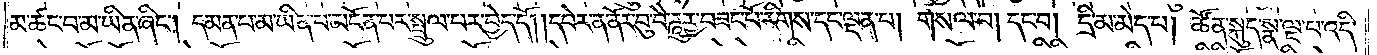མ་ཚང་བ་མ་ཡིན་ཞིང༌། དམན་པ་མ་ཡིན་པ་མངོན་པར་སྤྲུལ་པར་བྱེད་དོ། །དཔེར་ན་ནོར་བུ་བཻ་ཌཱུཪྻ་བཟང་པོ་རིགས་དང་ལྡན་པ། གསལ་བ། དང་བ། དྲི་མ་མེད་པ། ཚོན་སྐུད་སྣ་ལྔ་པ་འདི་
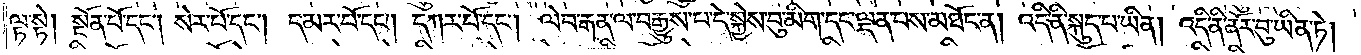ལྟ་སྟེ། སྔོན་པོ་དང༌། སེར་པོ་དང༌། དམར་པོ་དང༌། དཀར་པོ་དང༌། ལེབ་རྒན་ལ་བརྒྱུས་པ་དེ་སྐྱེས་བུ་མིག་དང་ལྡན་པས་མཐོང་ན། འདི་ནི་སྐུད་པ་ཡིན། འདི་ནི་ནོར་བུ་ཡིན་ཏེ།
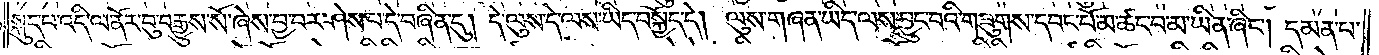སྐུད་པ་འདི་ལ་ནོར་བུ་བརྒྱུས་སོ་ཞེས་བྱ་བར་ཤེས་པ་དེ་བཞིན་དུ། དེ་ལུས་དེ་ལས་ཡིད་བསྐྱོད་དེ། ལུས་གཞན་ཡིད་ལས་བྱུང་བའི་གཟུགས་དབང་པོ་མ་ཚང་བ་མ་ཡིན་ཞིང༌། དམན་པ་
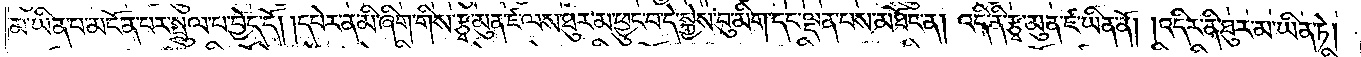མ་ཡིན་པ་མངོན་པར་སྤྲུལ་པ་བྱེད་དོ། །དཔེར་ན་མི་ཞིག་གིས་རྩྭ་མུན་ཛ་ལས་ཐུར་མ་ཕྱུང་བ་དེ་སྐྱེས་བུ་མིག་དང་ལྡན་པས་མཐོང་ན། འདི་ནི་རྩྭ་མུན་ཛ་ཡིན་ནོ། །འདི་ནི་ཐུར་མ་ཡིན་ཏེ།
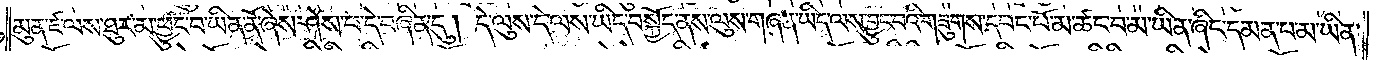མུན་ཛ་ལས་ཐུར་མ་ཕྱུང་བ་ཡིན་ནོ་ཞེས་ཤེས་པ་དེ་བཞིན་དུ། དེ་ལུས་དེ་ལས་ཡིད་བསྐྱོད་ནས་ལུས་གཞན་ཡིད་ལས་བྱུང་བའི་གཟུགས་དབང་པོ་མ་ཚང་བ་མ་ཡིན་ཞིང་དམན་པ་མ་ཡིན་
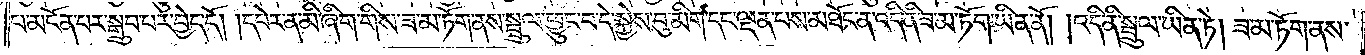པ་མངོན་པར་སྒྲུབ་པར་བྱེད་དོ། །དཔེར་ན་མི་ཞིག་གིས་ཟ་མ་ཏོག་ནས་སྦྲུལ་ཕྱུང་བ་དེ་སྐྱེས་བུ་མིག་དང་ལྡན་པས་མཐོང་ན་འདི་ནི་ཟ་མ་ཏོག་ཡིན་ནོ། །འདི་ནི་སྦྲུལ་ཡིན་ཏེ། ཟ་མ་ཏོག་ནས་
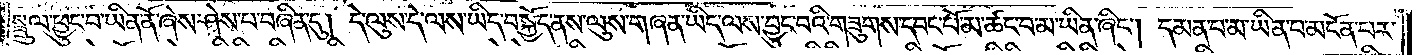སྤྲུལ་ཕྱུང་བ་ཡིན་ནོ་ཞེས་ཤེས་པ་བཞིན་དུ། དེ་ལུས་དེ་ལས་ཡིད་བསྐྱོད་ནས་ལུས་གཞན་ཡིད་ལས་བྱུང་བའི་གཟུགས་དབང་པོ་མ་ཚང་བ་མ་ཡིན་ཞིང༌། དམན་པ་མ་ཡིན་པ་མངོན་པར་
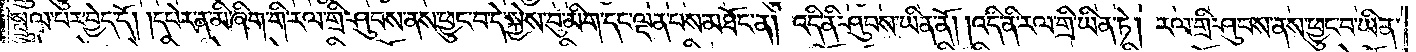སྤྲུལ་པར་བྱེད་དོ། །དཔེར་ན་མི་ཞིག་གི་རལ་གྲི་ཤུབས་ནས་ཕྱུང་བ་དེ་སྐྱེས་བུ་མིག་དང་ལྡན་པས་མཐོང་ན། འདི་ནི་ཤུབས་ཡིན་ནོ། །འདི་ནི་རལ་གྲི་ཡིན་ཏེ། རལ་གྲི་ཤུབས་ནས་ཕྱུང་བ་ཡིན་
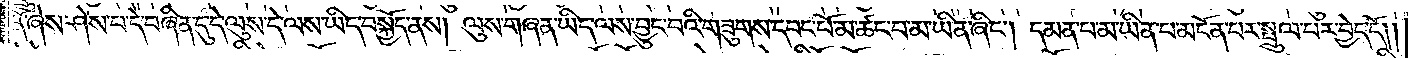ནོ་ཞེས་ཤེས་པ་དེ་བཞིན་དུ་དེ་ལུས་དེ་ལས་ཡིད་བསྐྱོད་ནས། ལུས་གཞན་ཡིད་ལས་བྱུང་བའི་གཟུགས་དབང་པོ་མ་ཚང་བ་མ་ཡིན་ཞིང༌། དམན་པ་མ་ཡིན་པ་མངོན་པར་སྤྲུལ་པར་བྱེད་དོ། །
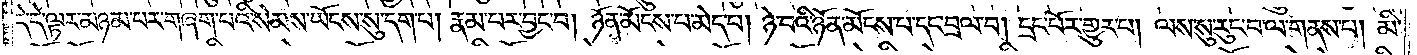དེ་དེ་ལྟར་མཉམ་པར་གཞག་པའི་སེམས་ཡོངས་སུ་དག་པ། རྣམ་པར་བྱང་བ། ཉོན་མོངས་པ་མེད་པ། ཉེ་བའི་ཉོན་མོངས་པ་དང་བྲལ་བ། དྲང་པོར་གྱུར་པ། ལས་སུ་རུང་བ་ལ་གནས་པ། མི་
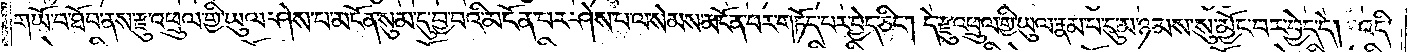གཡོ་བ་ཐོབ་ནས་རྫུ་འཕྲུལ་གྱི་ཡུལ་ཤེས་པ་མངོན་སུམ་དུ་བྱ་བའི་མངོན་པར་ཤེས་པ་ལ་སེམས་མངོན་པར་གཏོད་པར་བྱེད་ཅིང༌། དེ་རྫུ་འཕྲུལ་གྱི་ཡུལ་རྣམ་པ་དུ་མ་ཉམས་སུ་མྱོང་བར་བྱེད་དེ། འདི་
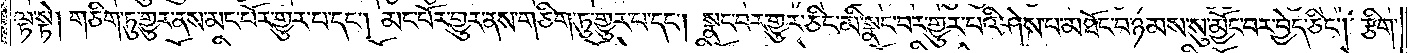ལྟ་སྟེ། གཅིག་ཏུ་གྱུར་ནས་མང་པོར་གྱུར་པ་དང༌། མང་པོར་གྱུར་ནས་གཅིག་ཏུ་གྱུར་པ་དང༌། སྣང་བར་གྱུར་ཅིང་མི་སྣང་བར་གྱུར་པའི་ཤེས་པ་མཐོང་བ་ཉམས་སུ་མྱོང་བར་བྱེད་ཅིང༌། རྩིག་
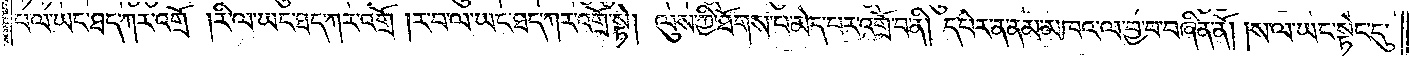པ་ལ་ཡང་ཐད་ཀར་འགྲོ་།རི་ལ་ཡང་ཐད་ཀར་འགྲོ་།ར་བ་ལ་ཡང་ཐད་ཀར་འགྲོ་སྟེ། ལུས་ཀྱི་ཐོགས་པ་མེད་པར་འགྲོ་བ་ནི། དཔེར་ན་ནམ་མཁའ་ལ་བྱ་བ་བཞིན་ནོ། །ས་ལ་ཡང་སྟེང་དུ་
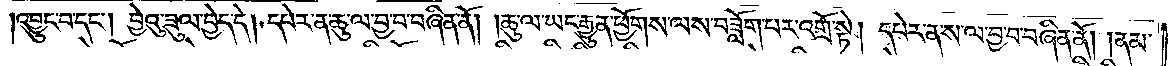འབྱུང་པ་དང༌། བྱེའུ་ཟུལ་བྱེད་དེ། དཔེར་ན་ཆུ་ལ་བྱ་བ་བཞིན་ནོ། །ཆུ་ལ་ཡང་རྒྱུན་ཕྱོགས་ལས་བཟློག་པར་འགྲོ་སྟེ། དཔེར་ན་ས་ལ་བྱ་བ་བཞིན་ནོ། །ནམ་
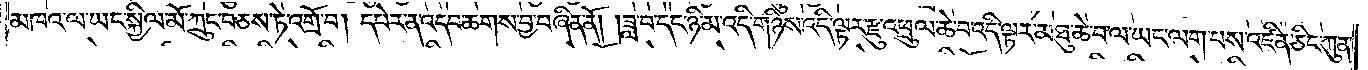མཁའ་ལ་ཡང་སྐྱིལ་མོ་ཀྲུང་བཅས་ཏེ་འགྲོ་བ། དཔེར་ན་འདབ་ཆགས་བྱ་བཞིན་ནོ། །ཟླ་བ་དང་ཉི་མ་འདི་གཉིས་འདི་ལྟར་རྫུ་འཕྲུལ་ཆེ་བ་འདི་ལྟར་མཐུ་ཆེ་བ་ལ་ཡང་ལགས་པས་འཛིན་ཅིང་ཀུན་
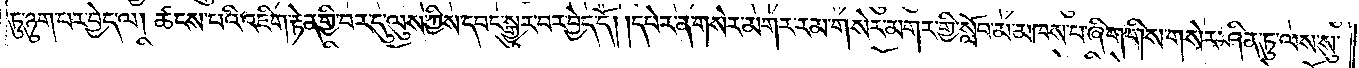ཏུ་ཉུག་པར་བྱེད་ལ། ཚངས་པའི་འཇིག་རྟེན་གྱི་བར་དུ་ལུས་ཀྱིས་དབང་སྒྱུར་བར་བྱེད་དོ། །དཔེར་ན་གསེར་མགར་རམ་གསེར་མགར་གྱི་སློབ་མ་མཁས་པ་ཞིག་གིས་གསེར་ཤིན་ཏུ་ལས་སུ་
